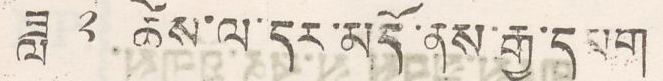ཟླ ༢ ཚེས་ལ་དར་མདོ་ནས་རྒྱ་དམག
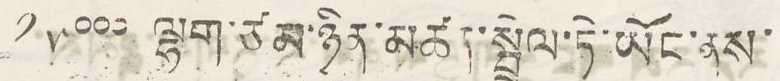༡༥༠༠༠ ལྷག་ཙམ་ཉིན་མཚན་སྤྲེལ་ཏེ་ཡོང་ནས་
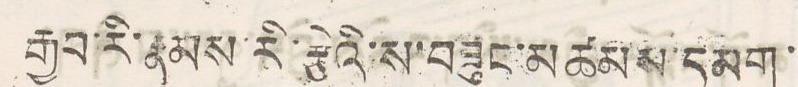རྒྱབ་རི་རྣམས་རི་རྩེའི་ས་བཟུང་མཚམས་དམག་
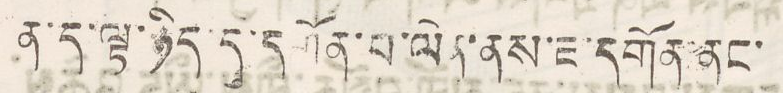ན་ད་ལྟ་ཉིད་དུ་དགོན་པ་ལེན་ནས་ཇ་དགོན་ནང་
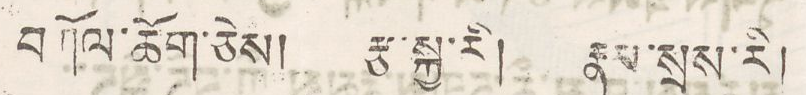བཀོལ་ཆོག་ཅེས། རྩ་སྐྱ་རི། རྣམ་སྲས་རི།
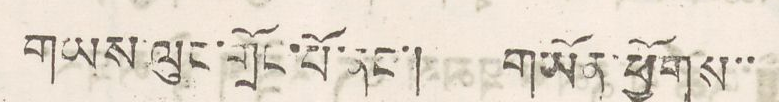གཡས་ལུང་གྲོང་པོ་ནང། གྱོན་ཕྱོགས་་་
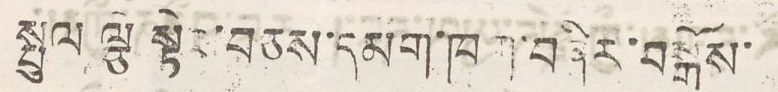སྤུལ ལྕེ་སྟེར་བཅས་དམག་ཁག་བཞིར་བསྒོས་
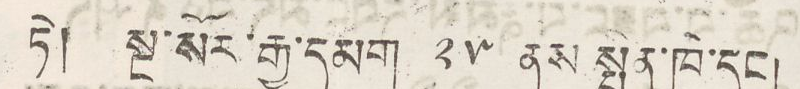ཏེ། སྔ་སོར་རྒྱ་དམག ༢༥ ནས་སྤྲིན་ཁེ་དང།
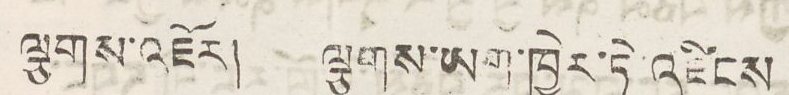ལྕགས་འཇོར། ལྕགས་ཡག་ཁྱེར་ཏེ འཛིངས
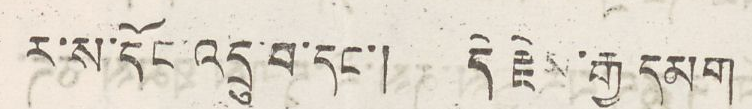ར་ས་དོང་འདྲུ་བ་དང་། དེ རྗེས་རྒྱ དམག
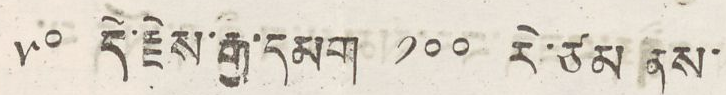༥༠ དེ་རྗེས་རྒྱ་དམག ༡༠༠ རེ་ཙམ ནས་
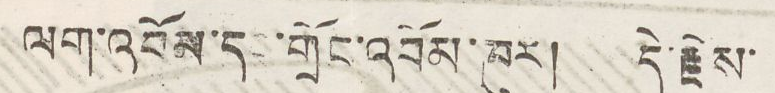ལག་འབོམ་དང་གྲོང་འབོམ་ཁུར། དེ་རྗེས་
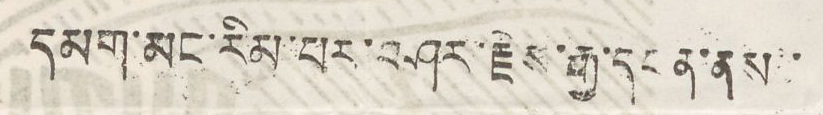དམག་མང་རིམ་པར་བཤར་རྗེས་རྒྱ་དང་ན་ནས་
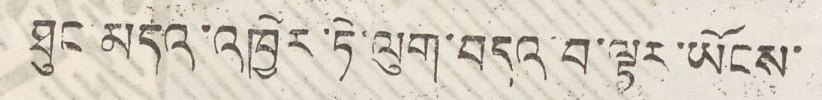ཐུང་མདའ་འཁྱེར་ཏེ་ལུག་བདའ བ་ལྟར་ཡོངས་
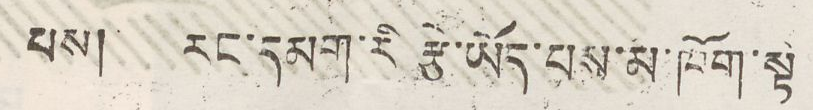པས། རང་དམག་རི རྩེ་ཡོད་པས་མ་ཁོག་སྟེ
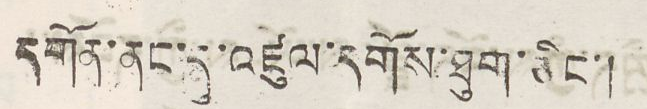དགོན་ནང་དུ་འཛུལ་དགོས་ཐུག་ཅིང་།
